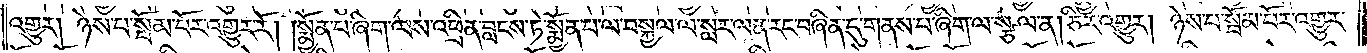འགྱུར། ཉེས་པ་སྦོམ་པོར་འགྱུར་རོ། །སྨྱོན་པ་ཞིག་ལས་འཕྲིན་བླངས་ཏེ་སྨྱོན་པ་ལ་བསྐྱལ་ལ་སླར་ལན་རང་བཞིན་དུ་གནས་པ་ཞིག་ལ་སྩལ་ན། ཅིར་འགྱུར། ཉེས་པ་སྦོམ་པོར་འགྱུར་
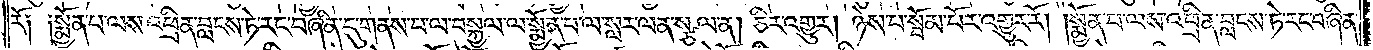རོ༑ ༑སྨྱོན་པ་ལས་འཕྲིན་བླངས་ཏེ་རང་བཞིན་དུ་གནས་པ་ལ་བསྐྱལ་ལ་སྨྱོན་པ་ལ་སླར་ལན་སྩལ་ན། ཅིར་འགྱུར། ཉེས་པ་སྦོམ་པོར་འགྱུར་རོ། །སྨྱོན་པ་ལས་འཕྲིན་བླངས་ཏེ་རང་བཞིན་
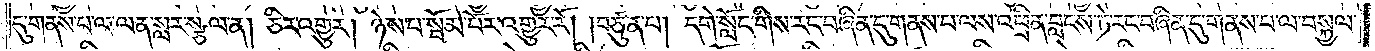དུ་གནས་པ་ལ་ལན་སླར་སྩལ་ན། ཅིར་འགྱུར། ཉེས་པ་སྦོམ་པོར་འགྱུར་རོ། །བཙུན་པ། དགེ་སློང་གིས་རང་བཞིན་དུ་གནས་པ་ལས་འཕྲིན་བླངས་ཏེ་རང་བཞིན་དུ་གནས་པ་ལ་བསྐྱལ་
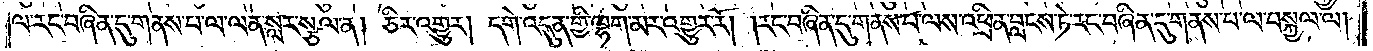ལ་རང་བཞིན་དུ་གནས་པ་ལ་ལན་སླར་སྩལ་ན། ཅིར་འགྱུར། དགེ་འདུན་གྱི་ལྷག་མར་འགྱུར་རོ། །རང་བཞིན་དུ་གནས་པ་ལས་འཕྲིན་བླངས་ཏེ་རང་བཞིན་དུ་གནས་པ་ལ་བསྐྱལ་ལ།
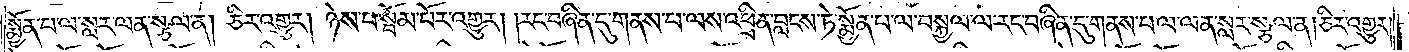སྨྱོན་པ་ལ་སླར་ལན་སྩལ་ན། ཅིར་འགྱུར། ཉེས་པ་སྦོམ་པོར་འགྱུར། །རང་བཞིན་དུ་གནས་པ་ལས་འཕྲིན་བླངས་ཏེ་སྨྱོན་པ་ལ་བསྐྱལ་ལ་རང་བཞིན་དུ་གནས་པ་ལ་ལན་སླར་སྩལ་ན། ཅིར་འགྱུར་
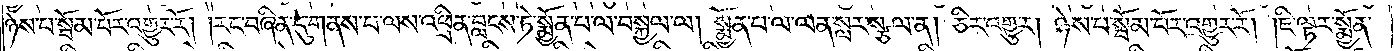ཉེས་པ་སྦོམ་པོར་འགྱུར་རོ། །རང་བཞིན་དུ་གནས་པ་ལས་འཕྲིན་བླངས་ཏེ་སྨྱོན་པ་ལ་བསྐྱལ་ལ། སྨྱོན་པ་ལ་ལན་སླར་སྩལ་ན། ཅིར་འགྱུར། ཉེས་པ་སྦོམ་པོར་འགྱུར་རོ། །ཇི་ལྟར་སྨྱོན་
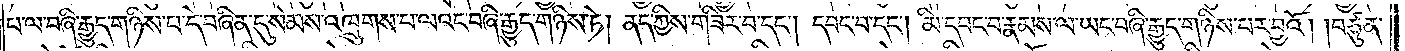པ་ལ་བཞི་རྒྱུད་གཉིས་པ་དེ་བཞིན་དུ་སེམས་འཁྲུགས་པ་ལའང་བཞི་རྒྱུད་གཉིས་ཏེ། ནད་ཀྱིས་གཟིར་བ་དང༌། དབང་བ་དང༌། མི་དབང་བ་རྣམས་ལ་ཡང་བཞི་རྒྱུད་གཉིས་པར་བྱའོ། །བཙུན་
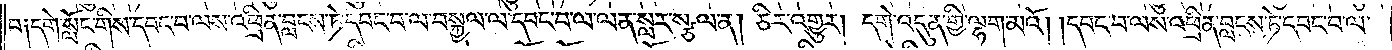པ༑ དགེ་སློང་གིས་དབང་བ་ལས་འཕྲིན་བླངས་ཏེ་དབང་བ་ལ་བསྐྱལ་ལ་དབང་བ་ལ་ལན་སླར་སྩལ་ན། ཅིར་འགྱུར། དགེ་འདུན་གྱི་ལྷག་མའོ། །དབང་བ་ལས་འཕྲིན་བླངས་ཏེ་དབང་བ་ལ་
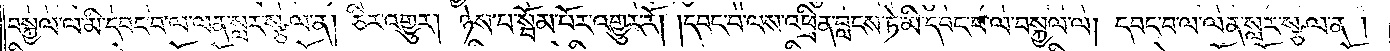བསྐྱལ་ལ་མི་དབང་བ་ལ་ལན་སླར་སྩལ་ན། ཅིར་འགྱུར། ཉེས་པ་སྦོམ་པོར་འགྱུར་རོ། །དབང་བ་ལས་འཕྲིན་བླངས་ཏེ་མི་དབང་བ་ལ་བསྐྱལ་ལ། དབང་བ་ལ་ལན་སླར་སྩལ་ན།
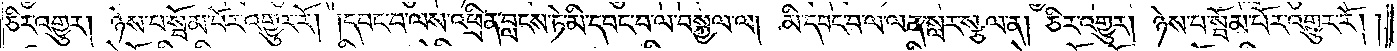ཅིར་འགྱུར། ཉེས་པ་སྦོམ་པོར་འགྱུར་རོ། །དབང་བ་ལས་འཕྲིན་བླངས་ཏེ་མི་དབང་བ་ལ་བསྐྱལ་ལ། མི་དབང་བ་ལ་ལན་སླར་སྩལ་ན། ཅིར་འགྱུར། ཉེས་པ་སྦོམ་པོར་འགྱུར་རོ། །
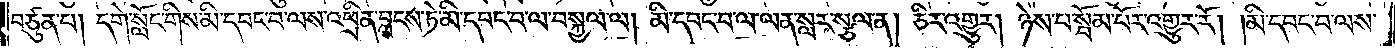བཙུན་པ། དགེ་སློང་གིས་མི་དབང་བ་ལས་འཕྲིན་བླངས་ཏེ་མི་དབང་བ་ལ་བསྐྱལ་ལ། མི་དབང་བ་ལ་ལན་སླར་སྩལ་ན། ཅིར་འགྱུར། ཉེས་པ་སྦོམ་པོར་འགྱུར་རོ། །མི་དབང་བ་ལས་
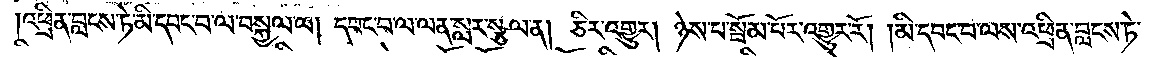།འཕྲིན་བླངས་ཏེ་མི་དབང་བ་ལ་བསྐྱལ་ལ། དབང་བ་ལ་ལན་སླར་སྩལ་ན། ཅིར་འགྱུར། ཉེས་པ་སྦོམ་པོར་འགྱུར་རོ། །མི་དབང་བ་ལས་འཕྲིན་བླངས་ཏེ་
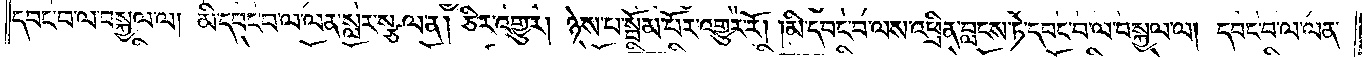དབང་བ་ལ་བསྐྱལ་ལ། མི་དབང་བ་ལ་ལན་སླར་སྩལ་ན། ཅིར་འགྱུར། ཉེས་པ་སྦོམ་པོར་འགྱུར་རོ། །མི་དབང་བ་ལས་འཕྲིན་བླངས་ཏེ་དབང་བ་ལ་བསྐྱལ་ལ། དབང་བ་ལ་ལན་
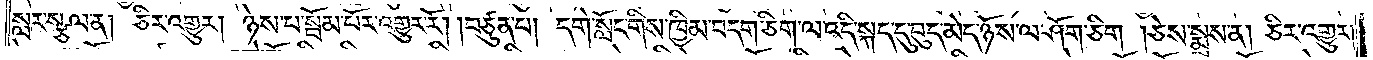སླར་སྩལ་ན། ཅིར་འགྱུར། ཉེས་པ་སྦོམ་པོར་འགྱུར་རོ། །བཙུན་པ། དགེ་སློང་གིས་ཁྱིམ་བདག་ཅིག་ལ་འདི་སྐད་དུ་བུད་མེད་ཉོས་ལ་ཤོག་ཅིག །ཅེས་སྨྲས་ན། ཅིར་འགྱུར་
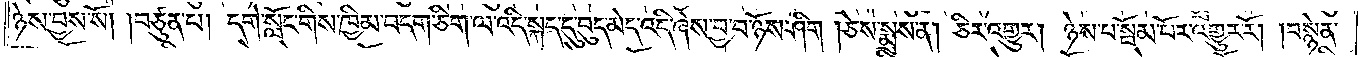ཉེས་བྱས་སོ། །བཙུན་པ། དགེ་སློང་གིས་ཁྱིམ་བདག་ཅིག་ལ་འདི་སྐད་དུ་བུད་མེད་འདི་ཞེས་བྱ་བ་ཉོས་ཤིག །ཅེས་སྨྲས་ན། ཅིར་འགྱུར། ཉེས་པ་སྦོམ་པོར་འགྱུར་རོ། །བསྙེན་
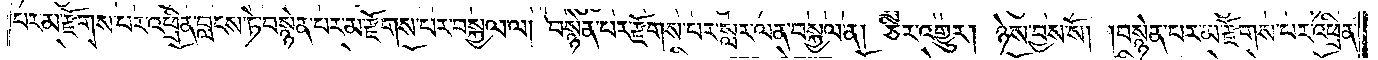པར་མ་རྫོགས་པར་འཕྲིན་བླངས་ཏེ་བསྙེན་པར་མ་རྫོགས་པར་བསྐྱལ་ལ། བསྙེན་པར་རྫོགས་པར་སླར་ལན་བསྐྱལ་ན། ཅིར་འགྱུར། ཉེས་བྱས་སོ། །བསྙེན་པར་མ་རྫོགས་པར་འཕྲིན་
